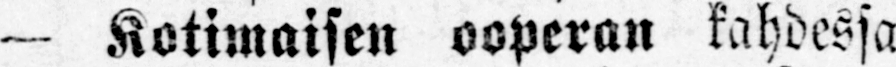— Kotimaisen ooperan kahdessa
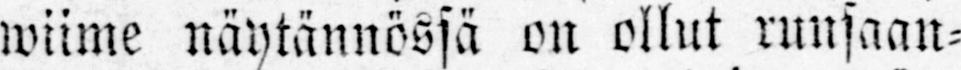wiime näytännössä on ollut runsaan-
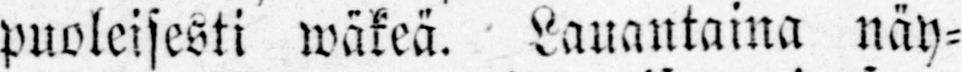puoleisesti wäkeä. Lauantaina näy-
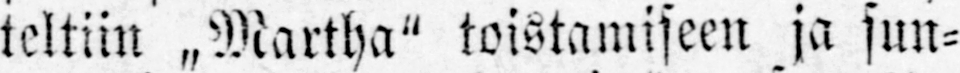teltiin „Martha" toistamiseen ja sun-
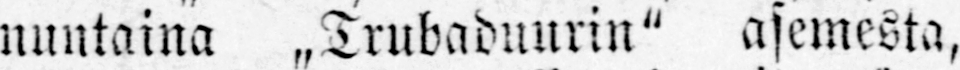nuntaina „Trubaduurin" asemesta,
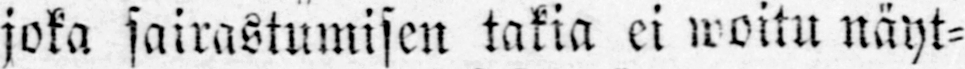joka sairastumisen takia ei woitu näyt-
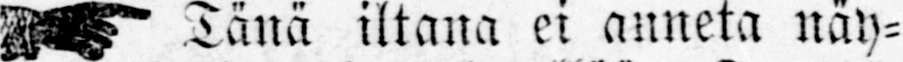tää, uudestaan „Aseseppä."
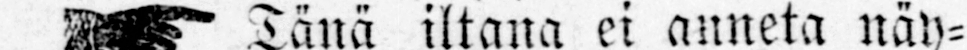Tänä iltana ei anneta näy-
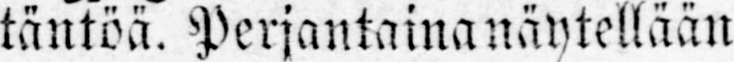täntöä. Perjantaina näytellään „Faust",
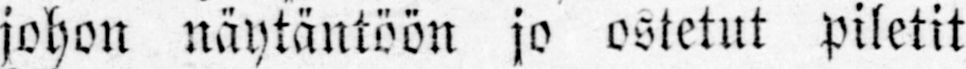johon näytäntöön jo ostetut piletit
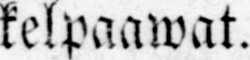kelpaawat.
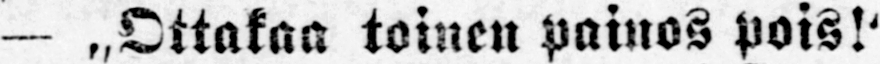— „Ottakaa toinen painos pois!"
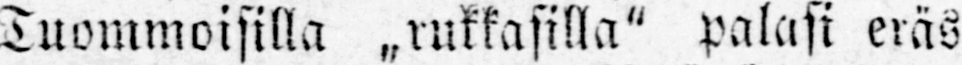Tuommoisilla „rukkasilla" palasi eräs
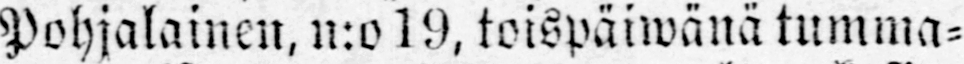Pohjalainen. n:o 19, toispäiwänä tumma-
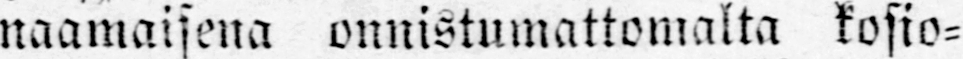naamaisena onnistumattomalta kosio-
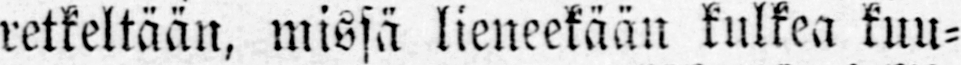retkeltään, missä lieneekään kulkea kuu-
